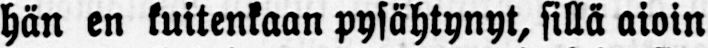hän en kuitenkaan pysähtynyt, sillä aioin
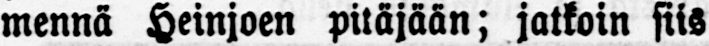mennä Heinjoen pitäjään; jatkoin siis
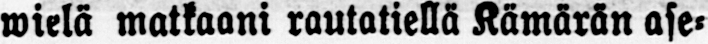wielä matkaani rautatiellä Kämärän ase-
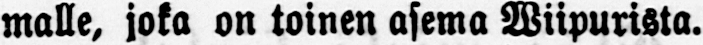malle, joka on toinen asema Wiipurista.
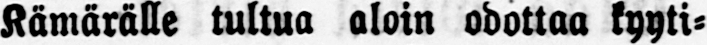Kämärälle tultua aloin odottaa kyyti-
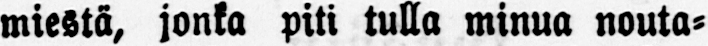miestä, jonka piti tulla minua nouta-
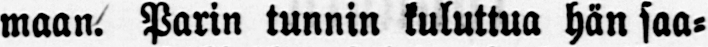maan. Parin tunnin kuluttua hän saa-
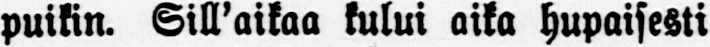puikin. Sill'aikaa kului aika hupaisesti
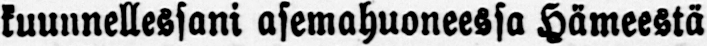kuunnellessani asemahuoneessa Hämeestä
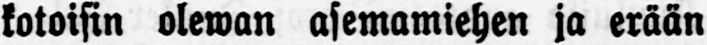kotoisin olewan asemamiehen ja erään
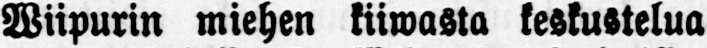Wiipurin miehen kiiwasta keskustelua
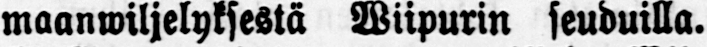maanwiljelyksestä Wiipurin seuduilla.
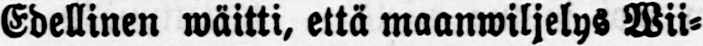Edellinen wäitti, että maanwiljelys Wii-
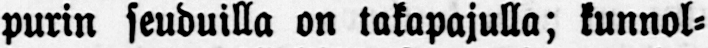purin seuduilla on takapajulla; kunnol-
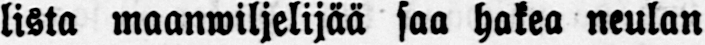lista maanwiljelijää saa hakea neulan
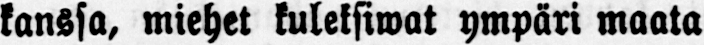kanssa, miehet kuleksiwat ympäri maata
